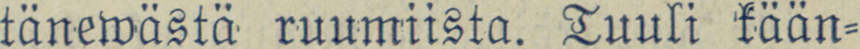tänewästä ruumiista. Tuuli kään-
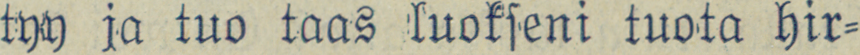tyy ja tuo taas luokseni tuota hir-
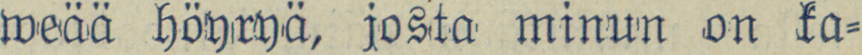weää höyryä, josta minun on ka-
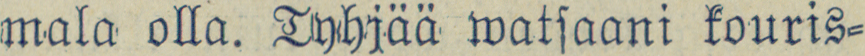mala olla. Tyhjää watsaani kouris-
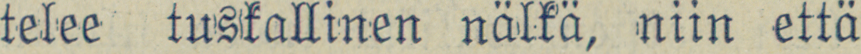telee tuskallinen nälkä, niin että
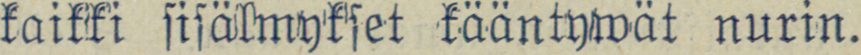kaikki sisälmykset kääntywät nurin.
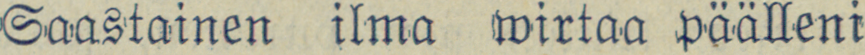Saastainen ilma wirtaa päälleni
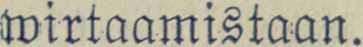wirtaamistaan.
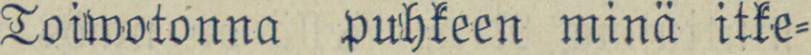Toiwotonna puhkeen minä itke-
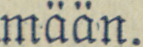mään.
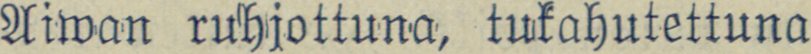Aiwan ruhjottuna, tukahutettuna
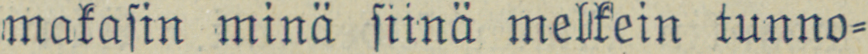makasin minä siina melkein tunno-
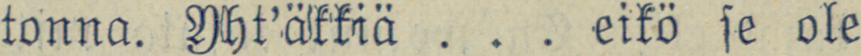tonna. Yht'äkkiä ... eikö se ole
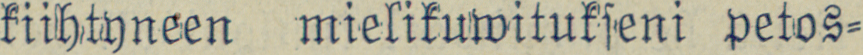kiihtyneen mielikuwitukseni petos-
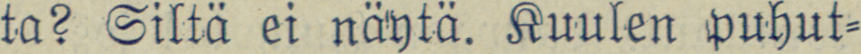ta? Siltä ei näytä. Kuulen puhut-
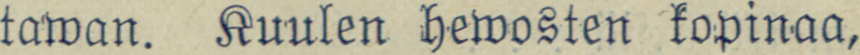tawan. Kuulen hewosten kopinaa,
